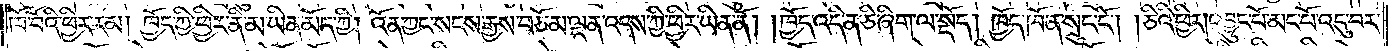ཁོ་བོའི་ཕྱིར་རམ། ཁྱོད་ཀྱི་ཕྱིར་ནི་མ་ཡིན་མོད་ཀྱི། འོན་ཀྱང་སངས་རྒྱས་བཅོམ་ལྡན་འདས་ཀྱི་ཕྱིར་ཡིན་ནོ། །ཁྱོད་འདི་ན་ཅི་ཞིག་ལ་སྡོད། ཁྱོད་ཁོ་ན་སྲུང་ངོ༌། །ཅིའི་ཕྱིར། འབྱུང་པོ་མང་པོ་འདུ་བར་
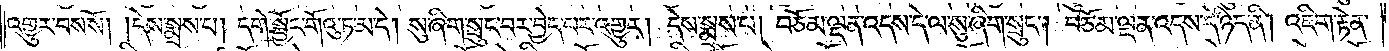འགྱུར་བས་སོ། །དེས་སྨྲས་པ། དགེ་སྦྱོང་གོའུ་ཏ་མ་དེ། སུ་ཞིག་སྲུང་བར་བྱེད་པར་འགྱུར། དེས་སྨྲས་པ། བཅོམ་ལྡན་འདས་དེ་ལ་སུ་ཞིག་སྲུང༌། བཅོམ་ལྡན་འདས་དེ་ཉིད་ནི། འཇིག་རྟེན་
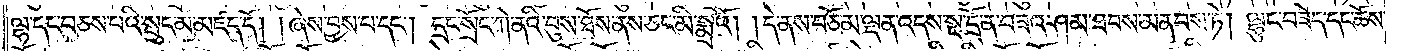ལྷ་དང་བཅས་པའི་སྲུང་མ་མཛད་དོ། །ཞེས་བྱས་པ་དང༌། དྲང་སྲོང་ཀེ་ནའི་བུས་ཐོས་ནས་ཅང་མི་སྨྲའོ། །དེ་ནས་བཅོམ་ལྡན་འདས་སྔ་དྲོ་ན་བཟའ་ཤམ་ཐབས་མནབས་ཏེ། ལྷུང་བཟེད་དང་ཆོས་
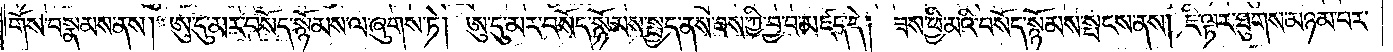གོས་བསྣམས་ནས། ཨུ་དུ་མར་བསོད་སྙོམས་ལ་ཞུགས་ཏེ། ཨུ་དུ་མར་བསོད་སྙོམས་སྤྱད་ནས་ཟས་ཀྱི་བྱ་བ་མཛད་དེ། ཟས་ཕྱི་མའི་བསོད་སྙོམས་སྤངས་ནས། ཇི་ལྟར་ཐུགས་མཉམ་པར་
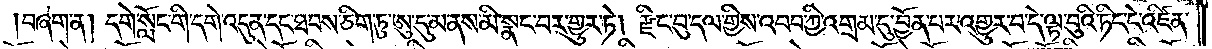།བཞག་ན། དགེ་སློང་གི་དགེ་འདུན་དང་ཐབས་ཅིག་ཏུ་ཨུ་དུ་མ་ནས་མི་སྣང་བར་གྱུར་ཏེ། རྫིང་བུ་དལ་གྱིས་འབབ་ཀྱི་འགྲམ་དུ་བྱོན་པར་འགྱུར་བ་དེ་ལྟ་བུའི་ཏིང་ངེ་འཛིན་
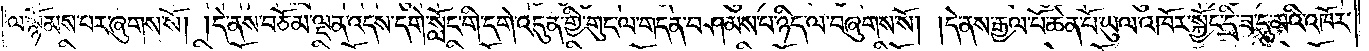ལ་སྙོམས་པར་ཞུགས་སོ། །དེ་ནས་བཅོམ་ལྡན་འདས་དགེ་སློང་གི་དགེ་འདུན་གྱི་གུང་ལ་གདན་བཤམས་པ་ཉིད་ལ་བཞུགས་སོ། །དེ་ནས་རྒྱལ་པོ་ཆེན་པོ་ཡུལ་འཁོར་སྐྱོང་དྲི་ཟ་དུ་མའི་འཁོར་
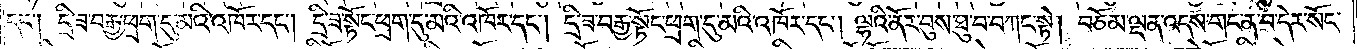དང༌། དྲི་ཟ་བརྒྱ་ཕྲག་དུ་མའི་འཁོར་དང༌། དྲི་ཟ་སྟོང་ཕྲག་དུ་མའི་འཁོར་དང༌། དྲི་ཟ་བརྒྱ་སྟོང་ཕྲག་དུ་མའི་འཁོར་དང༌། ལྷའི་ནོར་བུས་ཐུ་བ་བཀང་སྟེ། བཅོམ་ལྡན་འདས་གང་ན་བ་དེར་སོང་
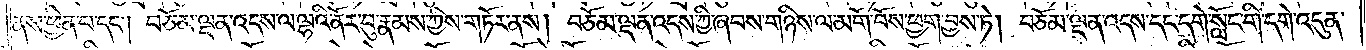ནས་ཕྱིན་པ་དང༌། བཅོམ་ལྡན་འདས་ལ་ལྷའི་ནོར་བུ་རྣམས་ཀྱིས་གཏོར་ནས། བཅོམ་ལྡན་འདས་ཀྱི་ཞབས་གཉིས་ལ་མགོ་བོས་ཕྱག་བྱས་ཏེ། བཅོམ་ལྡན་འདས་དང་དགེ་སློང་གི་དགེ་འདུན་
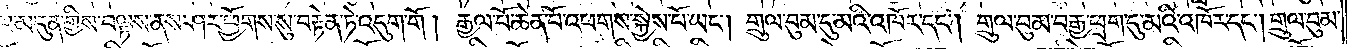ལ་མདུན་གྱིས་བལྟས་ནས་ཤར་ཕྱོགས་སུ་བརྟེན་ཏེ་འདུག་གོ། རྒྱལ་པོ་ཆེན་པོ་འཕགས་སྐྱེས་པོ་ཡང༌། གྲུལ་བུམ་དུ་མའི་འཁོར་དང༌། གྲུལ་བུམ་བརྒྱ་ཕྲག་དུ་མའི་འཁོར་དང༌། གྲུལ་བུམ་
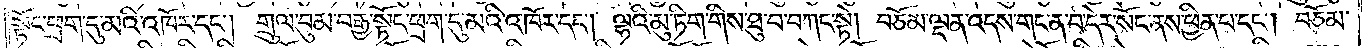སྟོང་ཕྲག་དུ་མའི་འཁོར་དང༌། གྲུལ་བུམ་བརྒྱ་སྟོང་ཕྲག་དུ་མའི་འཁོར་དང༌། ལྷའི་མུ་ཏིག་གིས་ཐུ་བ་བཀང་སྟེ། བཅོམ་ལྡན་འདས་གང་ན་བ་དེར་སོང་ནས་ཕྱིན་པ་དང༌། བཅོམ་
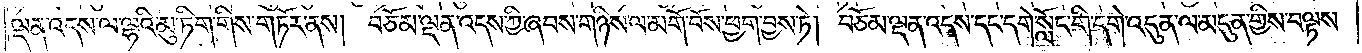ལྡན་འདས་ལ་ལྷའི་མུ་ཏིག་གིས་གཏོར་ནས། བཅོམ་ལྡན་འདས་ཀྱི་ཞབས་གཉིས་ལ་མགོ་བོས་ཕྱག་བྱས་ཏེ། བཅོམ་ལྡན་འདས་དང་དགེ་སློང་གི་དགེ་འདུན་ལ་མདུན་གྱིས་བལྟས་
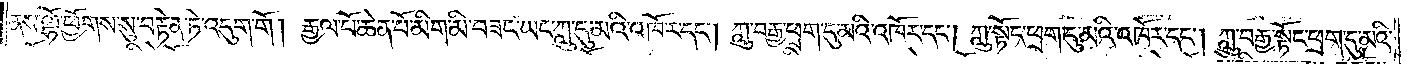ནས་ལྷོ་ཕྱོགས་སུ་བརྟེན་ཏེ་འདུག་གོ། རྒྱལ་པོ་ཆེན་པོ་མིག་མི་བཟང་ཡང་ཀླུ་དུ་མའི་འཁོར་དང༌། ཀླུ་བརྒྱ་ཕྲག་དུ་མའི་འཁོར་དང༌། ཀླུ་སྟོང་ཕྲག་དུ་མའི་འཁོར་དང༌། ཀླུ་བརྒྱ་སྟོང་ཕྲག་དུ་མའི་
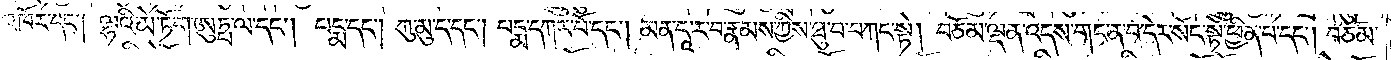འཁོར་དང༌། ལྷའི་མེ་ཏོག་ཨུཏྤ་ལ་དང༌། པདྨ་དང༌། ཀུ་མུ་ད་དང༌། པདྨ་དཀར་པོ་དང༌། མན་དཱ་ར་བ་རྣམས་ཀྱིས་ཐུ་བ་བཀང་སྟེ། བཅོམ་ལྡན་འདས་གང་ན་བ་དེར་སོང་སྟེ་ཕྱིན་པ་དང༌། བཅོམ་
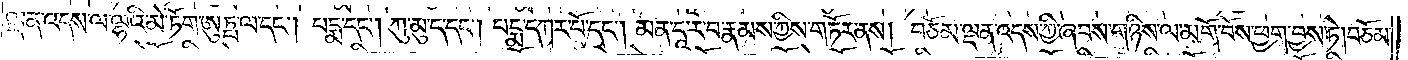ལྡན་འདས་ལ་ལྷའི་མེ་ཏོག་ཨུཏྤ་ལ་དང༌། པདྨ་དང༌། ཀུ་མུ་ད་དང༌། པདྨ་དཀར་པོ་དང༌། མན་དཱ་ར་བ་རྣམས་ཀྱིས་གཏོར་ནས། བཅོམ་ལྡན་འདས་ཀྱི་ཞབས་གཉིས་ལ་མགོ་བོས་ཕྱག་བྱས་ཏེ། བཅོམ་
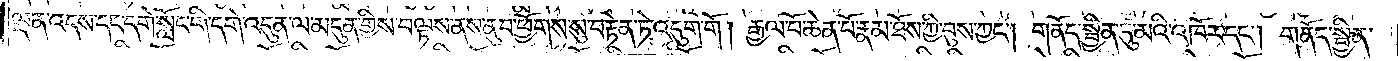ལྡན་འདས་དང་དགེ་སློང་གི་དགེ་འདུན་ལ་མདུན་གྱིས་བལྟས་ནས་ནུབ་ཕྱོགས་སུ་བརྟེན་ཏེ་འདུག་གོ། རྒྱལ་པོ་ཆེན་པོ་རྣམ་ཐོས་ཀྱི་བུས་ཀྱང༌། གནོད་སྦྱིན་དུ་མའི་འཁོར་དང༌། གནོད་སྦྱིན་
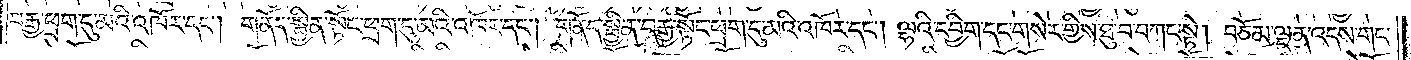བརྒྱ་ཕྲག་དུ་མའི་འཁོར་དང༌། གནོད་སྦྱིན་སྟོང་ཕྲག་དུ་མའི་འཁོར་དང༌། གནོད་སྦྱིན་བརྒྱ་སྟོང་ཕྲག་དུ་མའི་འཁོར་དང༌། ལྷའི་དབྱིག་དང་གསེར་གྱིས་ཐུ་བ་བཀང་སྟེ། བཅོམ་ལྡན་འདས་གང་
